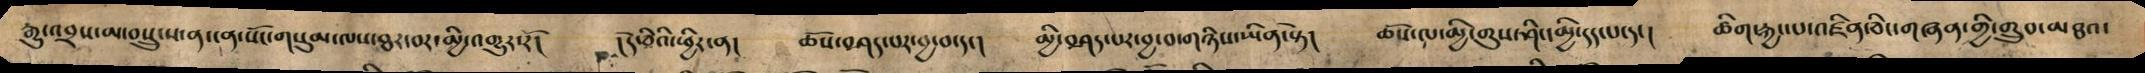རྒྱུ་འབྲས་མ་བསྲུངས་ན་ངན་སོང་གསུམ་ལས་ཐར་བར་མྱི་འགྱུར་རོ། །དེ་ཅིའི་ཕྱིར་ན། ཆོས་བཤད་པར་བྱ་བ་དང། མྱི་བཤད་པར་བྱ་བ་གཉིས་ཡིན་སྟེ། ཆོས་ལ་མྱི་གུས་ཤིང་མྱི་དད་པ་དང། ཚིག་རྐྱང་པ་འཛིན་ཅིང་གཞན་གྱི་གྲུབ་མཐའ་
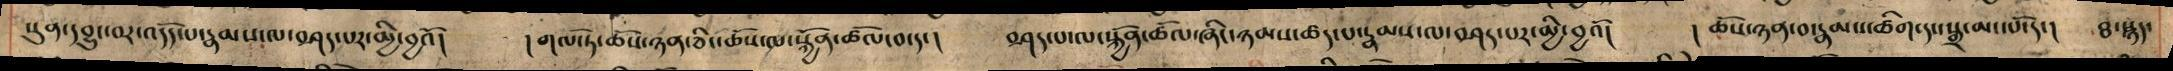སུན་དབྱུང་བར་འདོད་པ་རྣམས་ལ་བཤད་པར་མྱི་བྱའོ། །གལ་ཏེ་ཆོས་ཉན་ཅིང་ཆོས་ལ་སྐྱོན་ཚོལ་བ་དང། བཤད་པ་ལ་སྐྱོན་ཚོལ་ཞིང་ཉམས་ཚད་པ་རྣམས་ལ་བཤད་པར་མྱི་བྱའོ། ། ཆོས་ཉན་བ་རྣམས་ཚིག་དང་སྒྲ་མང་པོ་དང། ཐ་སྙད་
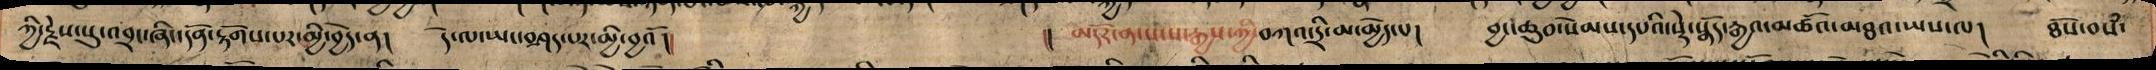ཀྱི་རྗེས་སུ་འབྲང་ཞིང་དོན་རྟོགས་པར་མྱི་བྱེད་ན། དེ་ལ་ཡང་བཤད་པར་མྱི་བྱའོ།། །། མདོར་ན་སངས་རྒྱས་ཀྱི་བཀའ་དྲི་མ་མྱེད་པ། བྱང་ཆུབ་སེམས་དཔའི་སྡེ་སྣོད་རྒྱའ་མཚོའ་མཐའ་ཡས་ལ། ཐོས་བསཾ་
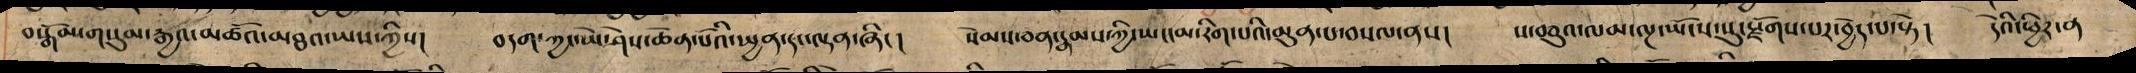བསྒོམ་གསུམ་རྒྱའ་མཚོའ་མཐའ་ཡས་ཀྱིས། བདག་ཀྱང་ཡེ་ཤེས་ཆེན་པོའི་སྤྱན་དང་ལྡན་ཞིང། སེམས་ཅན་རྣམས་ཀྱི་ཡང་མ་རིག་པའི་མུན་པ་བསལ་ནས། ས་བཅུའ་ལམ་ལྔ་ཡོངས་སུ་སྫོགས་པར་བྱེད་པ་སྟེ། དེའི་ཕྱིར་ན
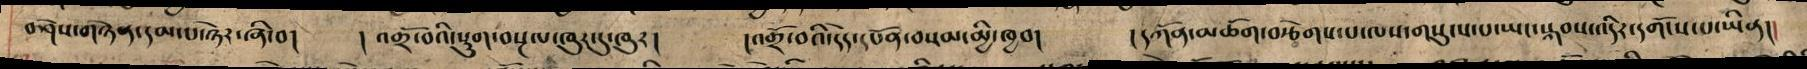བཤེས་གཉེན་དམ་པ་ཉེར་ཞི་བ། ། འགྲོ་བའི་སྡུག་བསྔལ་ཁུར་དུ་ཁུར། །འགྲོ་བའི་དེད་དཔོན་བསམ་མྱི་ཁྱབ། །དཀོན་མཆོག་བརྩེགས་པ་ལས་གསུངས་པ་ཡང་སྐབས་འདིར་དགོངས་པ་ཡིན།།
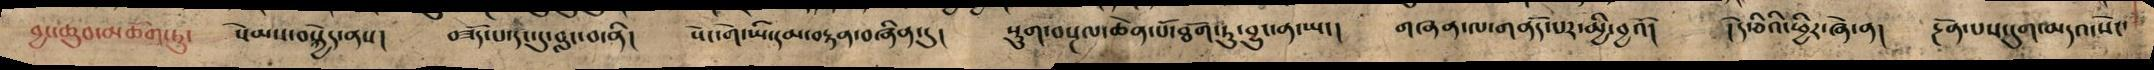བྱང་ཆུབ་མཆོག་ཏུ་ སེམས་བསྐྱེད་ནས། བཟོད་པ་དང་དུ་བླང་བ་ནི། སེང་གེ་ཡི་དམ་བརྟན་བཞིན་དུ། སྡུག་བསྔལ་ཆེན་པོ་ཐོག་ཏུ་བྱུང་ན་ཡང། གཞན་ལ་གནོད་པ་མྱི་བྱའོ། ། དེ་ཅིའི་ཕྱིར་ཞེ་ན། རྔོན་པས་དུག་མདའ་སོང་
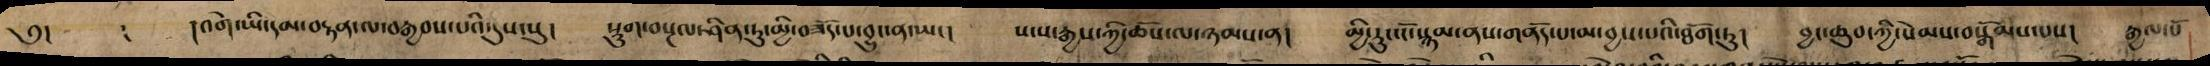༅། །འགེ་ཡི་དམ་བརྟན་ལ་བརྒྱབས་པའི་དུས་སུ། སྡུག་བསྔལ་ཤིན་ཏུ་མྱི་བཟོད་པ་བྱུང་ན་ཡང། སངས་རྒྱས་ཀྱི་ཆོས་ལ་ཉམས་ན། མྱི་རུང་ངོ་སྙམ་ནས་གནོད་པ་མ་བྱས་པའི་ཐོག་ཏུ། བྱང་ཆུབ་སེམས་བསྒོམས་པས། རྒྱལ་པོ
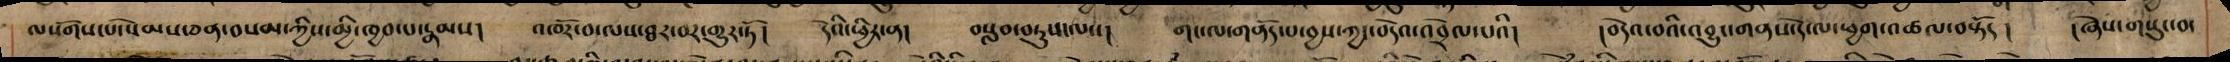ལསོགས་པ་སེམས་ཅན་བསན་ཀྱིས་མྱི་ཁྱབ་པ་རྣམས། འཁོར་བ་ལས་ཐར་བར་གྱུར་ཏོ། དེའི་ཕྱིར་ན། བསླབ་བཏུས་ལས། གང་ལ་གནོད་པ་བྱས་ཀྱང་བདེའ་འབྲེལ་པའི། །བདེའ་བའི་འབྱུང་གནས་དེ་ལ་ཕྱག་འཚལ་བསྟོད ། །ཞེས་གསུང་བ་
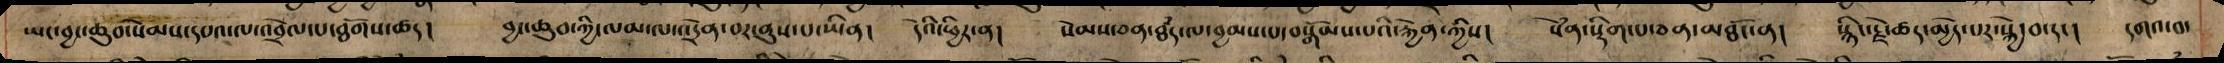ཡང་བྱང་ཆུབ་སེམས་དཔའ་ལ་འབྲེལ་པ་ཐོགས་ཚད། བྱང་ཆུབ་ཀྱི་ལམ་ལ་འདྲེན་བར་ནུས་པ་ཡིན། དེའི་ཕྱིར་ན། སེམས་ཅན་ཐཾད་ལ་བྱམས་པ་བསྒོམས་པའི་རྐྱེན་ཀྱིས། སེཾན་སྡིག་པ་ཅན་མཐོང་ན། སྙིང་རྗེ་ཚད་མྱེད་པར་སྐྱེ་བ་དང། དགའ་བ་
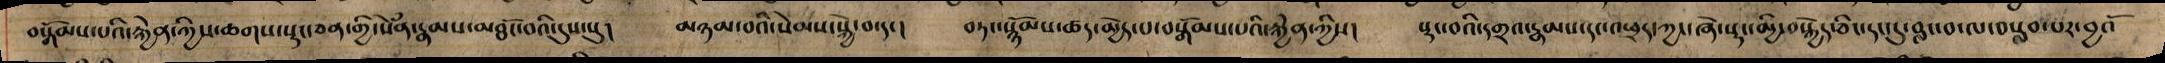བསྒོམས་པའི་རྐྱེན་ཀྱིས་ཆགས་སྡང་ཅན་གྱི་སེཾན་རྣམས་མཐོང་བའི་དུས་སུ། མཉམ་བའི་སེམས་སྐྱེ་བ་དང། བཏང་སྙོམས་ཚད་མྱེད་པ་བསྒོམས་པའི་རྐྱེན་ཀྱིས། སྡང་བའོ་དགྲ་རྣམས་དང་འཕྲད་ཀྱང་ཞེ་ྶདང་མྱི་བསྐྱེད་ཅིང་དང་དུ་བླང་བ་ལ་བསླབ་པར་བྱའོ
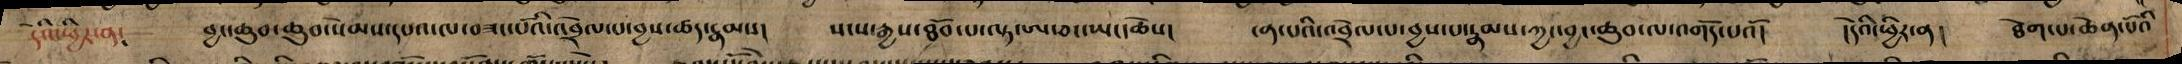དེའི་ཕྱིར་ན། བྱང་ཆུབ་ཆུབ་སེམས་དཔའ་ལ་བཟང་པོའི་འབྲེལ་པ་བྱས་ཚད་རྣམས། སངས་རྒྱས་ཐོབ་པ་ལྟ་ཨ་ཅང་ཡང་ཆོས། ངན་པའི་འབྲེལ་པ་བྱས་པ་རྣམས་ཀྱང་བྱང་ཆུབ་ལ་འགོད་པའོ། །དེའི་ཕྱིར་ན། ཐེག་པ་ཆེན་པོའི
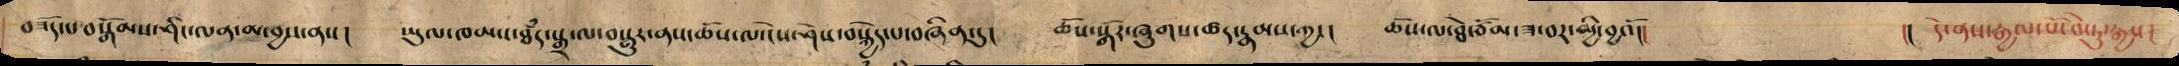བཟོད་པ་བསྒོམས་ཤིང་ལན་མ་བྱས་ནས། ཡུལ་ཁམས་ཐཾད་སྒྲ་ལ་བསྒྱུར་ནས་ཆོས་ལ་ངེས་ཤེས་བསྐྱེད་པ་བཞིན་དུ། ཆོས་སྒོར་ཞུགས་ཚད་རྣམས་ཀྱང། ཆོས་ལ་ཐེ་ཙོམ་ཟ་བར་མྱི་བྱའོ།། །། དེ་ནས་རྒྱལ་པོ་བེ་ཏུ་རྒྱས།
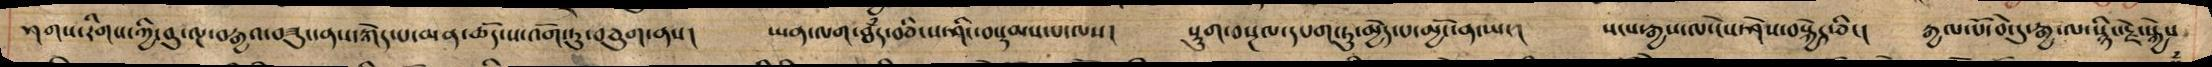ཤགས་རིགས་ཀྱི་བུ་ལྔ་བརྒྱའ་བཟུང་ནས་རྐེད་པ་མན་ཆོད་ས་འོག་ཏུ་བཅུག་ནས། ཡན་ལག་ཐཾད་བཅིངས་ཤིང་བསྡམས་པ་ལས། སྡུག་བསྔལ་དཔག་ཏུ་མྱེད་པ་མྱོང་ན་ཡང། སངས་རྒྱས་ལ་ངེས་ཤེས་བསྐྱེད་ཅིང། རྒྱལ་པོ་བེ་ཏུ་རྒྱ་ལ་སྙིང་རྗེ་སྐྱེས
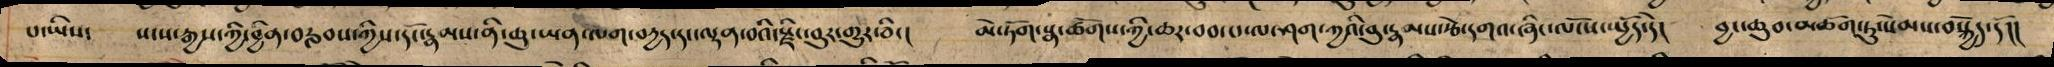པ་ཡིས་ སངས་རྒྱས་ཀྱི་བྱིན་བརླབས་ཀྱིས་དོ་རྣམས་ནི་ཆུ་ཡན་ལག་བརྱད་དང་ལྡན་བའི་སྫིང་བུར་གྱུར་ཅིང། མེ་ཏོག་སྣ་ཚོགས་ཀྱི་ཆར་བབ་པ་ལ་ཤག་ཀྱའི་བུ་རྣམས་རྩེ་དགའ་ཞིང་ལོངས་སྤྱོད་དེ། བྱང་ཆུབ་མཆོག་ཏུ་སེམས་བསྐྱེད་དོ།།
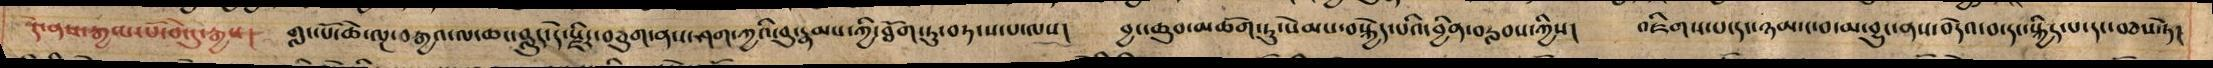དེ་ནས་རྒྱལ་པོ་བེ་དུ་རྒྱས། གླང་པོ་ཆེ་ལྔ་བརྒྱའ་ལ་ཆང་བླུད་དེ་སྫིར་བཅུག་ནས་ཤག་ཀྱའི་བུ་རྣམས་ཀྱི་ཐོག་ཏུ་བཏངས་པ་ལས། བྱང་ཆུབ་མཆོག་ཏུ་སེམས་བསྐྱེད་པའི་བྱིན་བརླབས་ཀྱིས། འཇིགས་པ་དང་ཉམ་ང་བ་མ་བྱུང་ནས་བདེའ་བ་དང་སྐྱིད་པ་དང་བཅས་ཏེ།
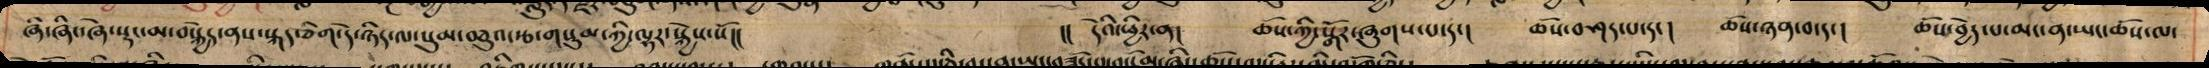ཞི་ཞིང་ཞེ་སྡང་མ་བསྐྱེད་ནས་སྐད་ཅིག་དེ་ཉིད་ལ་སུམ་བཅུའ་རྩ་གསུམ་ཀྱི་ལྷར་སྐྱེས་སོ།། །། དེའི་ཕྱིར་ན། ཆོས་ཀྱི་སྒོར་ཞུགས་པ་དང། ཆོས་བཤད་པ་དང། ཆོས་ཉན་བ་དང། ཆོས་བྱེད་པ་མང་ན་ཡང་ཆོས་ལ་
